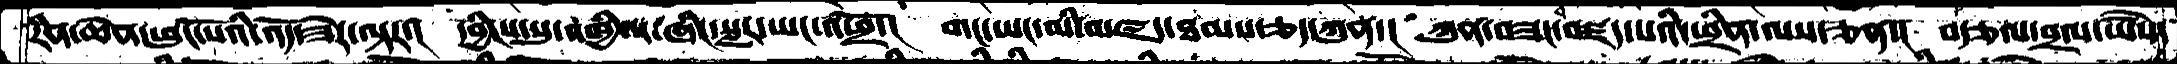རིན་ཆེན་ཕུང་པོའི་འོད་ཟེར་ལྟར་། དབྱིངས་སུ་འཁྱིལ་ཞིང་སླར་ཡང་འཕྲོ་། གང་ཡང་མི་མཛད་ཐམས་ཅད་ཀུན་། ཀུན་བཟང་མཛད་པའི་ཕྲིན་ལས་ཅན་། བརྩལ་བྲལ་ཡཻས་
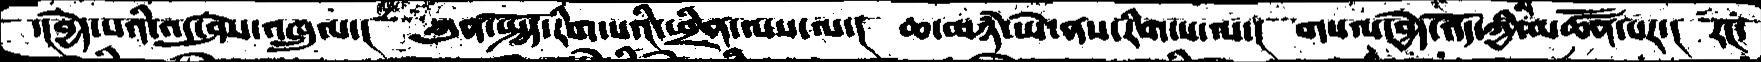་།བྱེད་པའི་འདུ་ཤེས་འཁྲུལ་། ཀུན་སྤྱོད་རིག་པའི་ཕྲིན་ལས་ལ་། ཆ་མཉཾ་ཡེ་ནས་རིག་པ་ལ་། གསལ་བྱེད་འོད་ཀྱི་མི་མཚོན་པར་། རང་
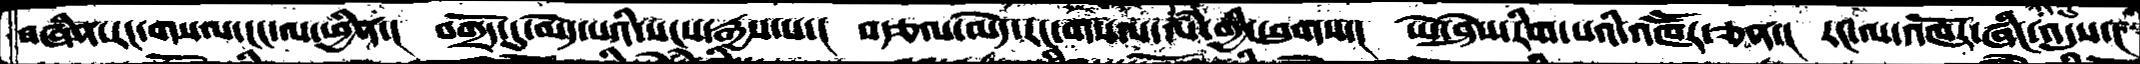བཞིན་རང་གསལ་ངང་ལ་ཕྱིན་། བགྲོད་དུ་མེད་པའི་སངས་རྒྱས་པ་། བརྩལ་མེད་རང་གསལ་ལཾ་གྱི་ཕུགས་། ཡེ་ཤེས་རིག་པའི་འཁཽར་ཅན་། རང་ལ་འཁོར་ཞིང་ཉིང་དུ་འདུས་།
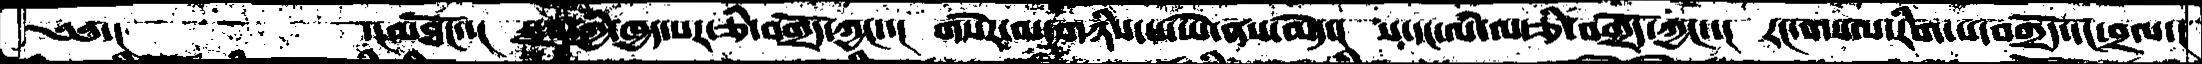༄༅་།    ་།མཐོང་་།  སྲས་ཀྱི་ཁྱད་པར་ཅི་བགྲོད་ཀྱང་་། གསེར་མ་གཉིས་པ་ཡེ་ནས་མེད་། ས་དང་ལཾ་ལ་ཅི་བགྲོད་ཀྱང་་། རང་གསལ་རིག་པ་བགྲོད་དང་བྲལ་།
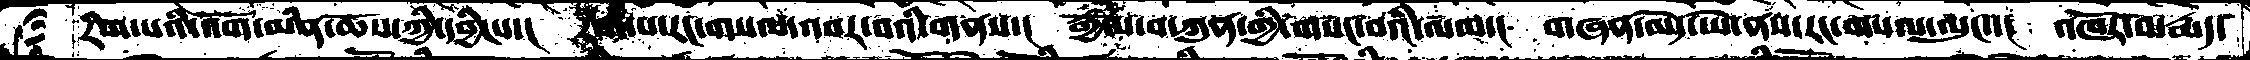རིག་པའི་འོག་མིན་ཆོས་ཀྱི་དབྱིངས་། རིག་པ་རང་གསལ་འབར་བའི་གནས་། རྒྱལ་བ་ཀུན་གྱི་གསང་བའི་ལམ་། གཞན་མེད་ཡེ་ནས་རང་གསལ་ལུང་་། འཁོར་བ་རྨད་
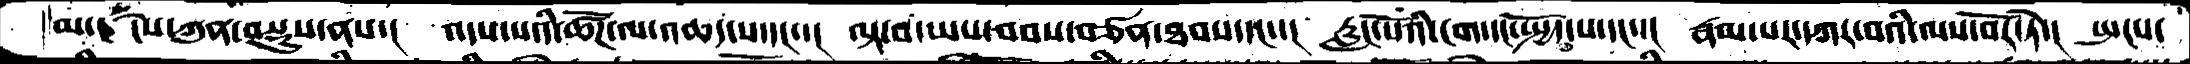མ་ངེས་ཀུན་བསྡུས་ནས་། འདས་པའི་ཚོཌ་ལ་འཆད་པ་དང་་། ལྟ་བ་ཡས་བབས་བཙན་ཐབས་དང་་། རླུང་པོའི་ངག་དང་སྤྱོད་པ་དང་་། རྣམ་པར་དཀར་བའི་ལས་བོར་ཏེ་། སྤངས་
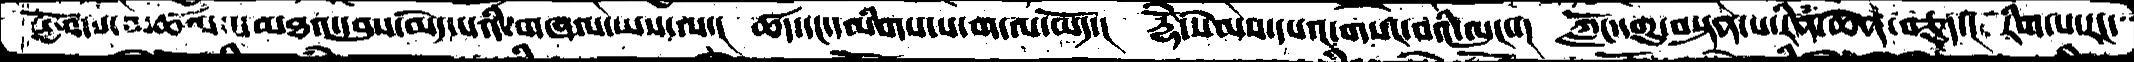ཕྱོགས་མཚལ་པ་མཐའ་དབུས་མེད་པའི་གཞལ་ཡས་ལ་། ཚད་དང་དམིགས་པ་ག་ལ་ཡོད་། རྡ྄ོེ་སེམས་དཔའ་གསང་བའི་ལུང་་། ཀློང་དགུ་བསྟན་པ་རིན་ཆེན་བཅུད་། རིག་པ་རང་
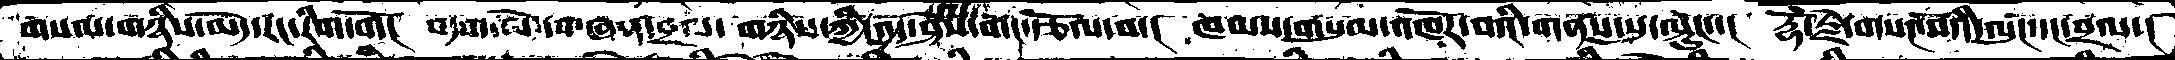གསལ་གཉིས་མེད་རང་རིག་གོ། བདག་མེད་གཞན་བྲལ་ གཉིས་ཀྱི་འདུ་ཤེས་གང་རྩོལ་བ་། ཁམས་གསུམ་འཁོར་བའི་གནས་སུ་ལྟུང་་། རྡོ་རྗེ་གསང་བའི་ལུང་དང་བྲལ་།
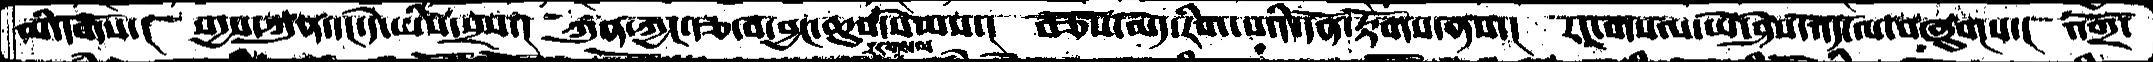མི་དགོས་། སདྱས་ཀུན་དང་དེ་ཡིས་སྲས་། ཀུན་ཀྱང་རྩ་བ་བྱང་ཆུབ་སེམས་། བཅོས་མེད་རིག་པའི་དོན་རྟོགས་ནས་། རང་གསལ་ཡེ་ཤེས་འོད་ལ་བཞུགས་། འགྲོ་
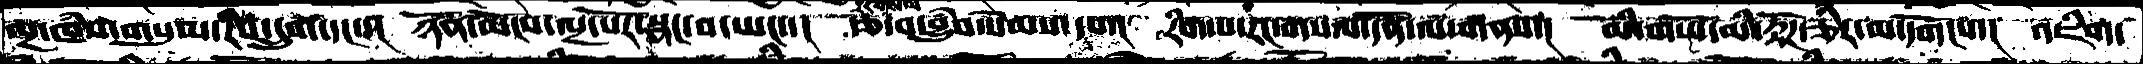ལྔ་ཁཾས་གསུམ་རིས་དྲུག་དང་་། ཉོན་མོངས་ལྔ་པོར་སྣང་བ་ཡང་་། རྩ་བ་བྱུཾབ་སེམས་དཔའ་ རིག་པ་རང་གསལ་དོན་ལ་གནས་། མི་གཡོ་མི་རྟོཌ་ཅིར་མ་དགོངས་། འཇིག་
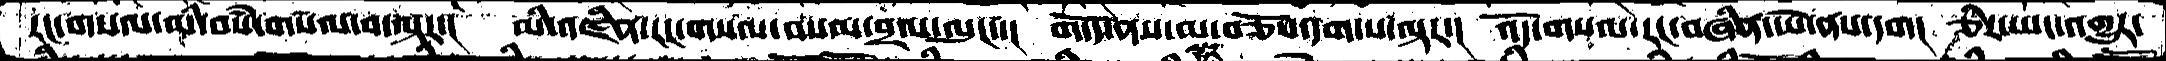རང་གསལ་མི་བསཾ་གསལ་བ་ལྟར་། མི་འཛིན་རང་གསལ་བསམ་བྲལ་ལུང་་། གདོད་ནས་མ་བཅོས་དག་པ་ལྟར་། འོད་གསལ་རང་བཞིན་ཡེ་ནས་དག། ཅིར་ཡང་འགྱུར་
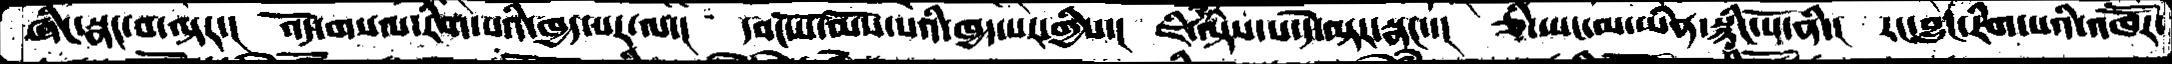ཞངི་སྣང་བ་ལྟར་། འོད་གསལ་རིག་པའི་ཁྱད་པར་ལ་། དབང་པོ་མོས་པའི་ཁྱད་པར་གྱིས་། ཇི་ལྟར་ལྟས་པ་དེ་ལྟར་སྣང་་། ཅི་ཡང་མ་ཡིན་སྙིང་པོ་ནི་། རང་བྱུང་རིག་པའི་འཁཽར་
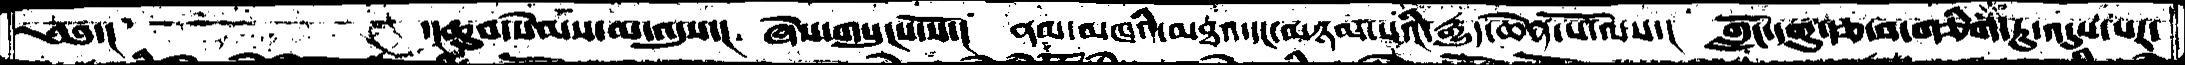༄༅་།       ་།ཆུབ་སེམས་ལ་འདུས་། ཞེས་གསུངས་སོ་། ནམ་མཁའི་མཐའ་དང་མཉམ་པའི་རྒྱུད་ཆེན་པོ་ལས་། གློང་དགུ་རྩ་བ་གཅིག་ཏུ་འདུས་པར་
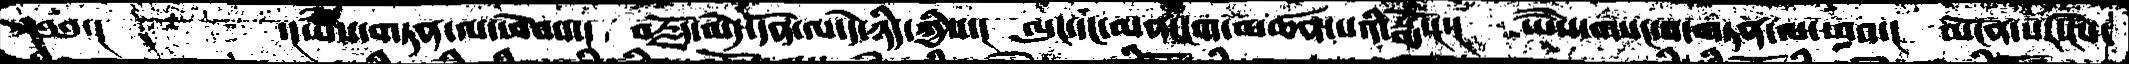༄༅་།      ་།ཡཻས་གཏན་ལ་ཕེབས་། བརྗོད་མེད་དོན་ལ་དེ་ཉིད་ཀྱིས་། ལུང་དང་མན་ངག་མཚན་པའི་སྨོས་། ཡཻས་གསང་བ་གཏན་ལ་ཕབ་། མངོན་པར་ངེས་
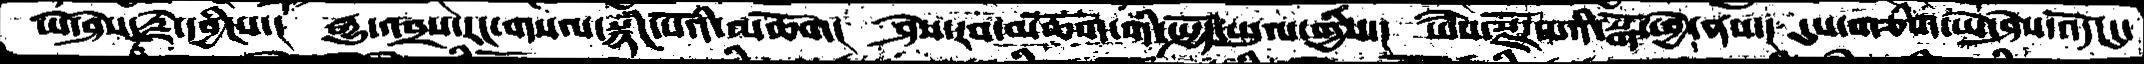ཡེ་ཤེས་རྡོ་རྗེ་དབྱིངས་། རྒྱུ་འབྲས་རང་གསལ་སྙིང་པོའི་མཆོག། ཤེས་རབ་མཆོག་གི་སྤྱོད་ཡུལ་གྱིས་། ཡཻས་སྫོཌ་པའི་སྒོ་ཕྱེ་ནས་། དུས་གཅིག་ཡེ་ཤེས་འོད་དུ་
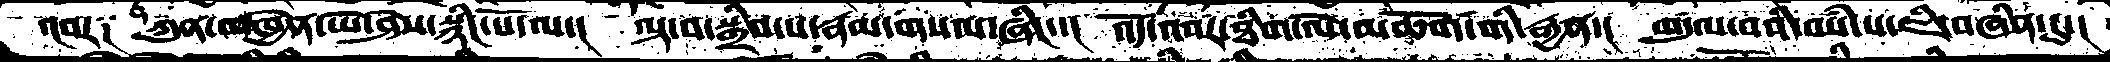འབར༑ ཀུན་མཁྱེན་ཡེ་ཤེས་སྙིང་པོ་ལ་། ལྟ་བ་སྒྲིབ་པ་རྣམ་གསལ་ཞིང་་། འོད་འབར་ཐིག་ལེ་མཆོག་གི་རྒྱན་། གདུལ་བའི་བསཾ་པ་ཇི་བཞིན་དུ་།
